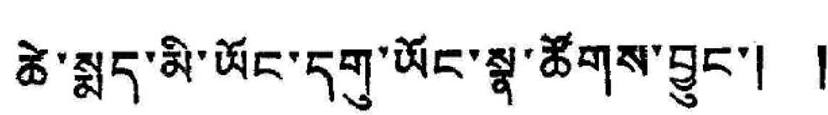ཚེ་སྨད་མི་ཡོང་དགུ་ཡོང་སྣ་ཚོགས་བྱུང་། །
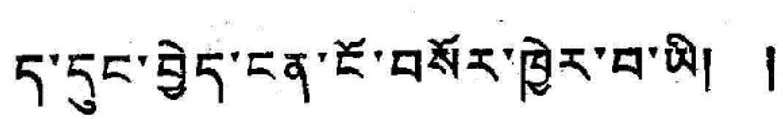ད་དུང་བྱེད་ངན་ངོ་བསོར་ཁྱེར་བ་ཡི། །
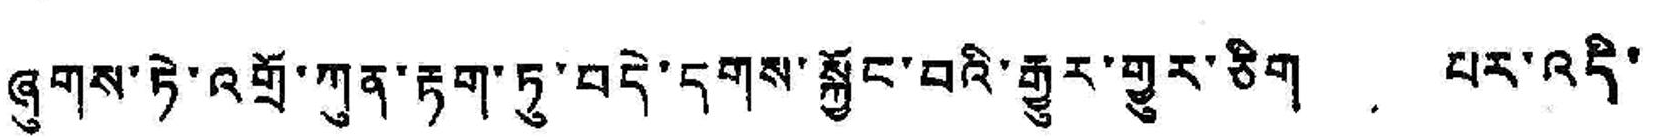ཞུགས་ཏེ་འགྲོ་ཀུན་རྟག་ཏུ་བདེ་དགས་སྐྱོང་བའི་རྒྱུར་གྱུར་ཅིག པར་འདི་
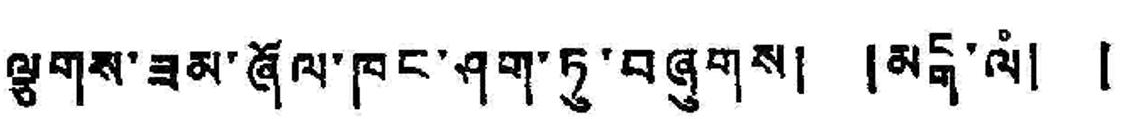ལྕགས་ཟམ་ཞོལ་ཁང་ཤག་ཏུ་བཞུགས། །མངྒ་ལཾ། །
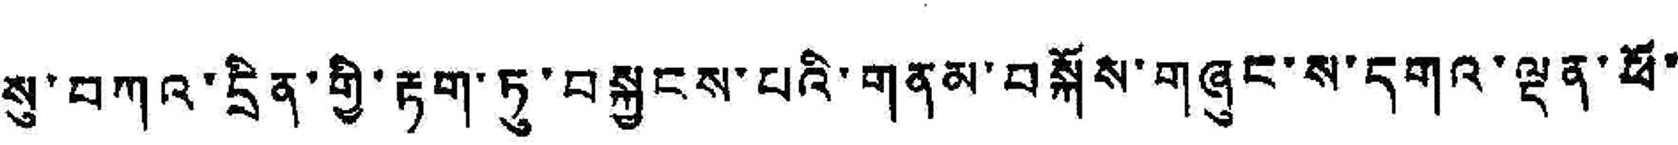སུ་བཀའ་དྲིན་གྱི་རྟག་ཏུ་བསྐྱངས་པའི་གནམ་བསྐོས་གཞུང་ས་དགའ་ལྡན་ཕོ་
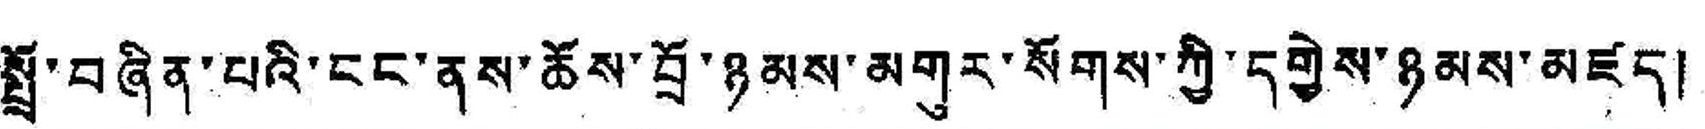སྤྲོ་བཞིན་པའི་ངང་ནས་ཆོས་བྲོ་ཉམས་མགུར་སོགས་ཀྱི་དགྱེས་ཉམས་མཛད།
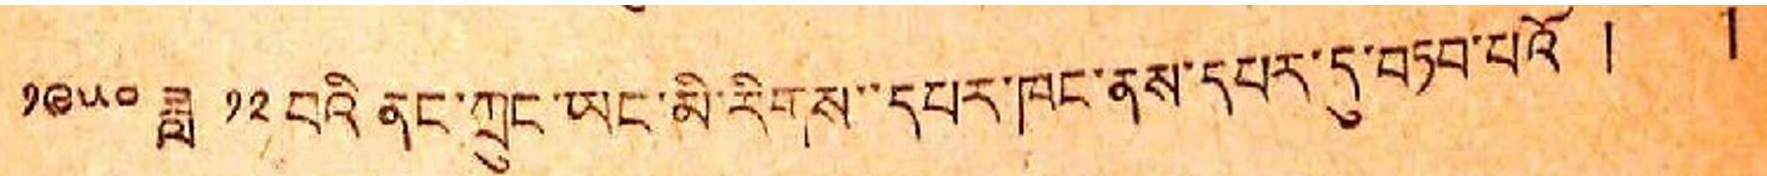༡༩༥༠ ཟླ ༡༢ བའི་ནང་ཀྲུང་ཡང་མི་རིགས་་དཔར་ཁང་ནས་དཔར་དུ་བཏབ་པའོ། །
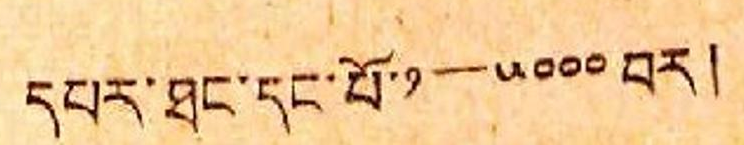དཔར་ཐང་དང་པོ་༡ — ༥༠༠༠ བར།
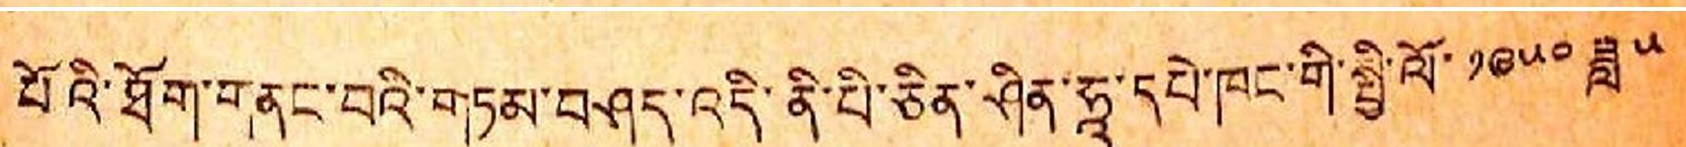པོའི་ཐོག་གནང་བའི་གཏམ་བཤད་འདི་ནི་པི་ཅིན་ཤིན་ཧཱ་དཔེ་ཁང་གི་སྤྱི་ལོ་༡༩༥༠ ཟླ ༥
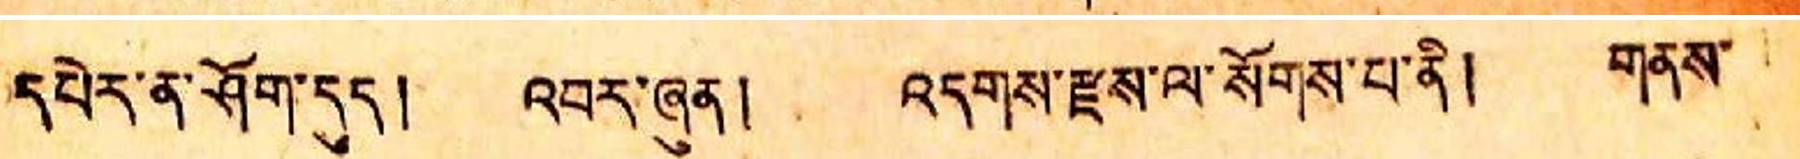དཔེར་ན་ཤོག་དུད། འབར་ཞུན། འདགས་རྫས་ལ་སོགས་པ་ནི། གནས་
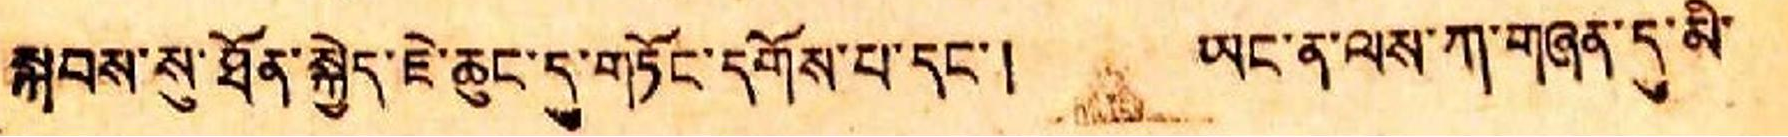སྐབས་སུ་ཐོན་སྐྱེད་ཇེ་ཆུང་དུ་གཏོང་དགོས་པ་དང་། ཡང་ན་ལས་ཀ་གཞན་དུ་མི་
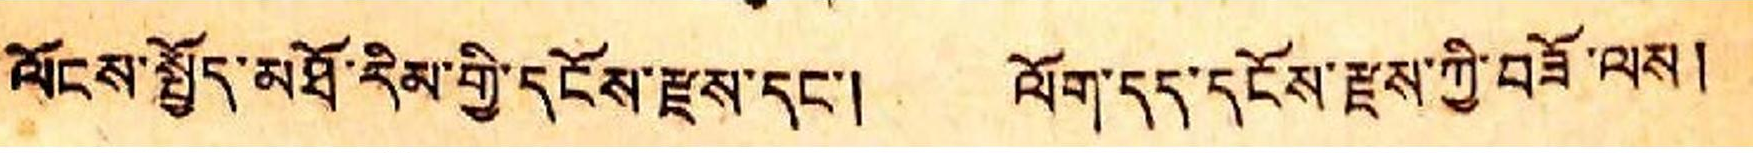ལོངས་སྤྱོད་མཐོ་རིམ་གྱི་དངོས་རྫས་དང་། ལོག་དད་དངོས་རྫས་ཀྱི་བཟོ་ལས།
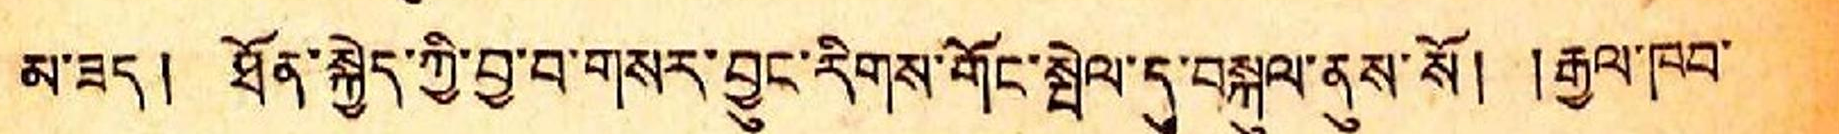མ་ཟད། ཐོན་སྐྱེད་ཀྱི་བྱ་བ་གསར་བྱུང་རིགས་གོང་སྤེལ་དུ་བསྐུལ་ནུས་སོ། །རྒྱལ་ཁབ་
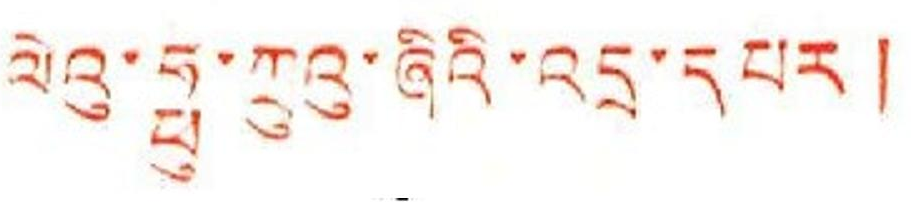ལེའུ་ཧྥུ་ཀྲུའུ་ཞིའི་འདྲ་དཔར།
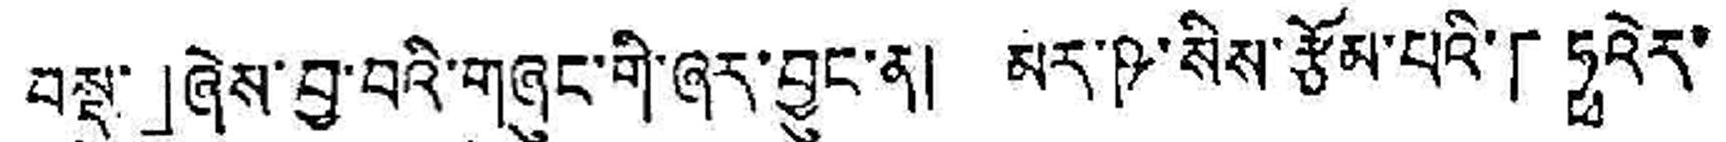བསྡུ་」ཞེས་བྱ་བའི་གཞུང་གི་ཞར་བྱུང་ན། མར་ཥ་སིས་རྩོམ་པའི་「ཧྥའེར་
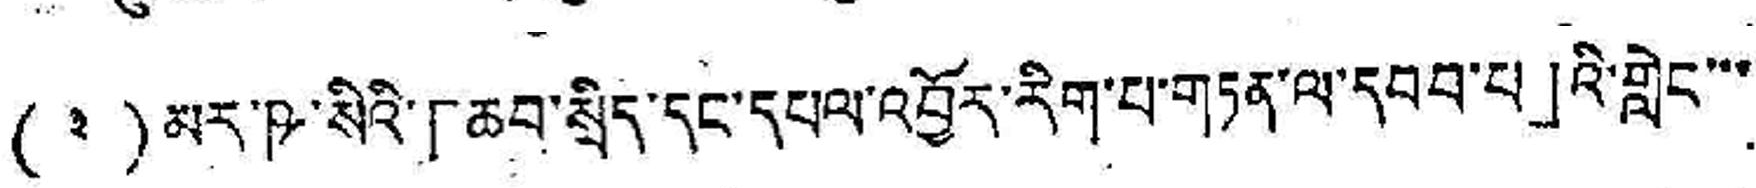(༣) མར་ཥ་སིའི་「ཆབ་སྲིད་དང་དཔལ་འབྱོར་རིག་པ་གཏན་ལ་དབབ་པ」འི་གླེང་་་
